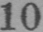10
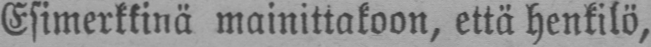Esimerkkinä mainittakoon, että henkilö,
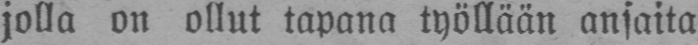jolla on ollut tapana työllään ansaita
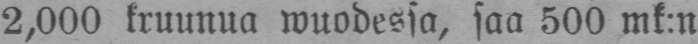2,000 kruunua wuodessa, saa 500 mk:n
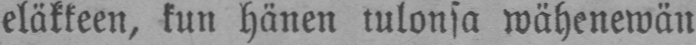eläkkeen, kun hänen tulonsa wähenewän
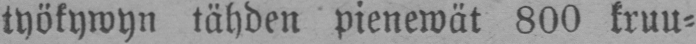työkywyn tähden pienewät 800 kruu-
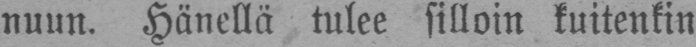nuun. Hänellä tulee silloin kuitenkin
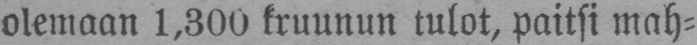olemaan 1,300 kruunun tulot, paitsi mah-
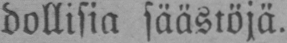dollisia säästöjä.
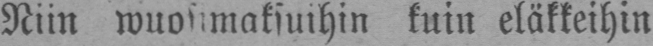Niin wuosimaksuihin kuin eläkkeihin
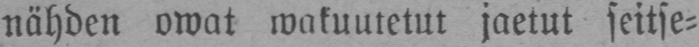nähden owat wakuutetut jaetut seitse-
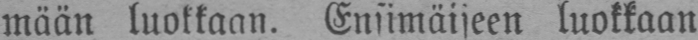mään luokkaan. Ensimäiseen luokkaan
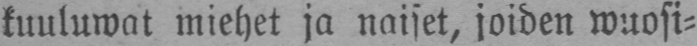kuuluwat miehet ja naiset, joiden wuosi-
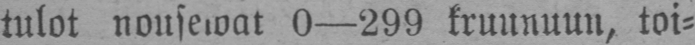tulot nousewat 0— 299 kruunuun, toi-
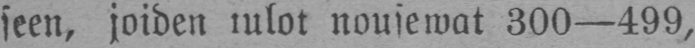seen, joiden tulot nousewat 300 — 499,
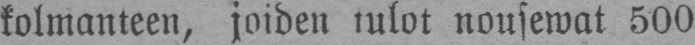kolmanteen, joiden tulot nousewat 500
